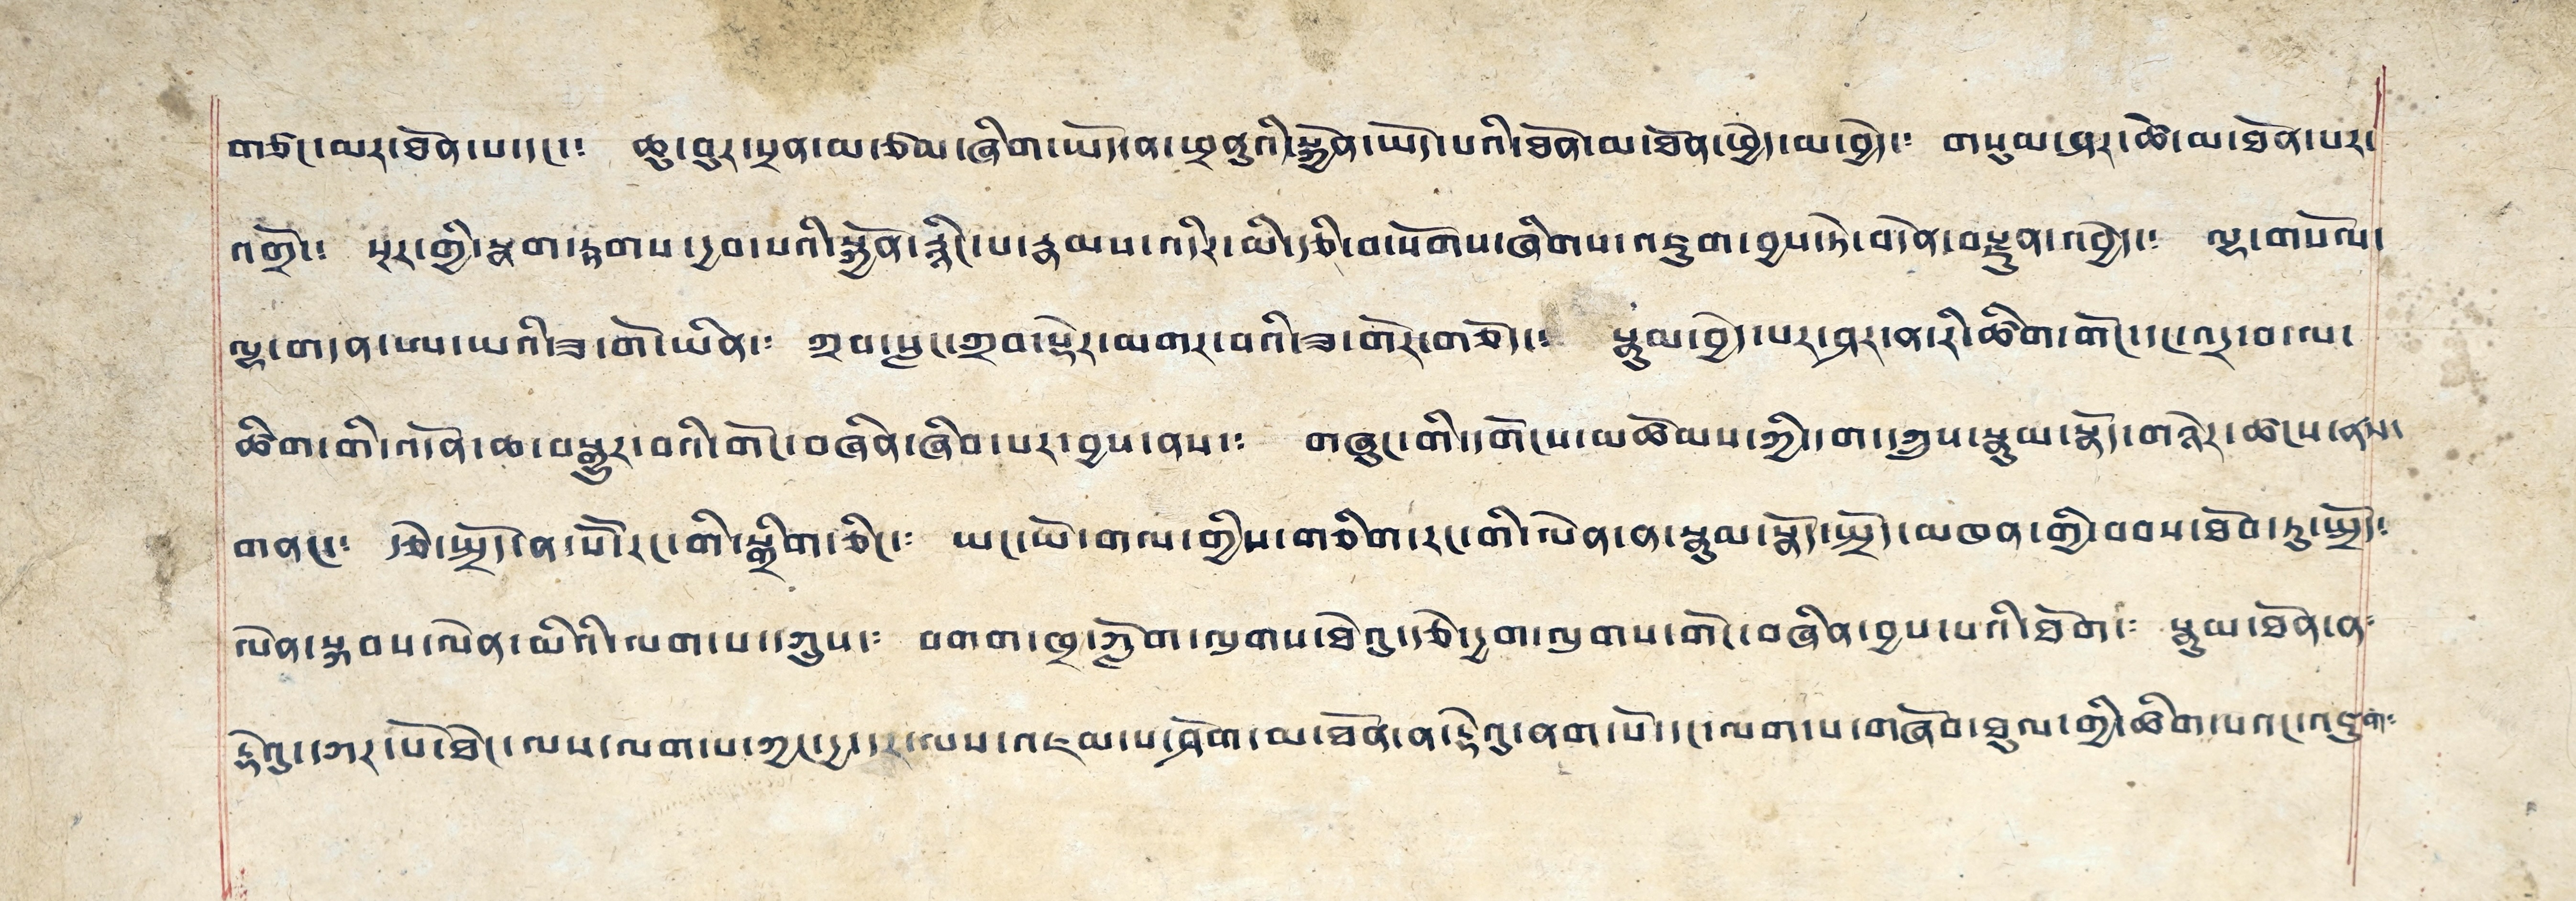གཙང་མར་ཐོན་པ་དང་༴ ཆུ་བུར་སྲན་མ་ཙམ་ཞིག་ཡོད་ན་ཕྲནུའི་རྐྱེན་ཡོད་པའི་ཐོན་མ་ཐོན་ཕྱེད་མ་བྱེད་༴ གསུམ་ཤར་ཚེ་མ་ཐོན་པར་
འགྲོ་༴ སྔར་གྱི་སྣག་རྟགས་དྱབ་པའི་སྐྱོན་རྙིང་པ་རྣམས་འདིར་མི་རྩི་བ་སོགས་ཞིགས་འཇུག་བྱས་ཏེ་བདེན་བརྫུན་འབྱེད་༴ ལྷ་གསོལ་
ལྷ་གདན་ཨ་ཡའི་ཟ་གོ་ཡིན་༴ ཀྲབ་སླང་ཀྲབ་སྡེར་མགར་བའི་ཟ་གོར་གཅོད་༴ སྣུམ་བྱེད་པར་ཤར་ན་རི་ཚིག་གོང་དང་འདྲ་བ་ལ་
ཚིག་གི་འདོན་ཆ་བསྒྱུར་བའི་གོང་བཞིན་ཞིབ་པར་བྱས་ནས་༴ གཞུང་གི་དགོངས་མཚོམས་ཀྱི་དག་དཀྲུས་སྣུམ་སྣོད་གཉེར་ཚངས་ན་
གནང་༴ རྩེ་སྤྲོད་ན་སོ་སོ་རང་གི་སྒྲིག་ཅིང་༴ ཡང་ཡོ་གལ་གྱིས་གཅིག་རང་གི་ལེན་ན་སྣུམ་སྣོད་སྤྲོད་མཁན་གྱི་བབས་ཐོབ་ཏུ་སྤྲོད༴
ལེན་སྐབས་ལེན་མིའི་ལག་པ་དཀྲུས་༴ བགག་ཁྲ་ཀློག་ལུགས་ཐེའུ་རྩེ་དྱག་ལུགས་གོང་བཞིན་བྱས་པའི་ཐོག་༴ སྣུམ་ཐོན་ན༴
རྡེའུ་དཀར་པོ་ཐེང་ལས་ལག་པ་ཀྱང་དྱ་དར་ལས་འཇམ་པ་ཤོག་མ་ཐོན་ན་རྡེའུ་ནག་པོ་དང་ལག་པ་གཞོབ་ཐུལ་གྱི་ཚིག་སའང་འཇུག༴
